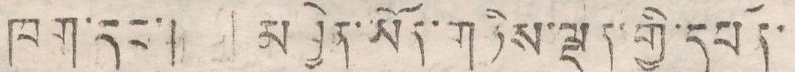ཁག་དང་། མཁྱེན་ཡོན་གཉིས་ལྡན་གྱི་དཔོན་
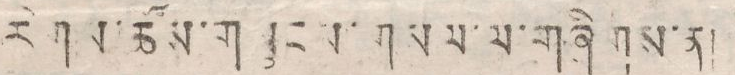རིགས་ཚོས་གསུངས་གསལ་ལ་གཞིགས་ན།
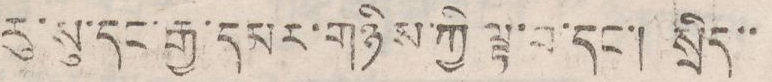རུ་སུ་དང་རྒྱ་དམར་གཉིས་ཀྱི་ལྟ་བ་དང་། སྲིད་་
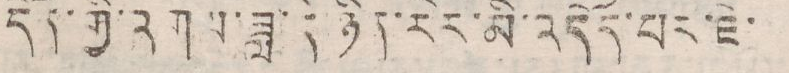དོན་གྱི་འགལ་ཟླ་དེ་ཉིན་རེར་མི་འདོད་པར་ཇེ་
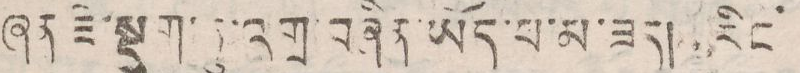ཞན་ཇི་སྡུག་ཏུ་འགྲ་བཞིན་ཡོད་པ་མ་ཟད། རིང་
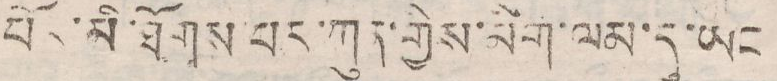ོཔྲ་མི་ཐོགས་པར་ཀུན་གྱིས་མིག་ལམ་དུ་ཡང
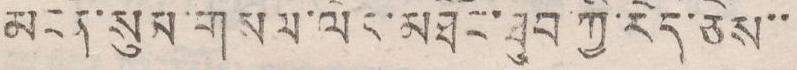མངོན་སུམ་གསལ་ལར་མཐོང་ཐུབ་ཀྱི་རེད་ཅེས་་
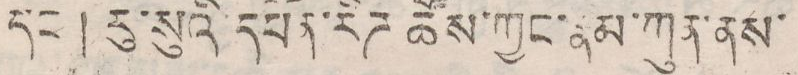དང་། རུ་སུའི་དཔོན་རིཌ་ཚོས་ཀྱང་རྣམ་ཀུན་ནས་
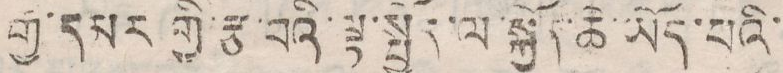རྒྱ་དམར་གྱི་རྩ་བའི་ལྟ་སྤྱོད་ལ་སྐྱོད་ཆེ་ཡོད་པའི་
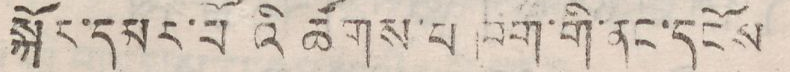སྐོར་དམར་པོའི་ཚོགས་པ་ཁག་གི་ནང་དནོས
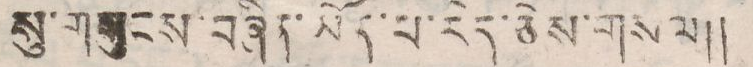སུ་གགུངས་བཞིན་ཡོད་པ་རེད་ཅེས་གསལ༎
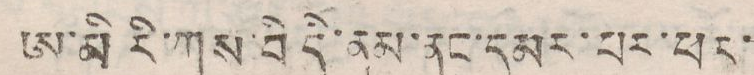ཨ་མི་རི་ཀས་བི དི་ནམ་ནང་དམར་པར་ཕར་
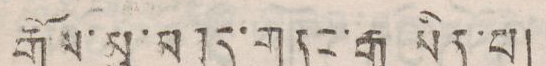རྒོལ་མུ་མཐུད་གནང་རྒྱུ མིན་པ།
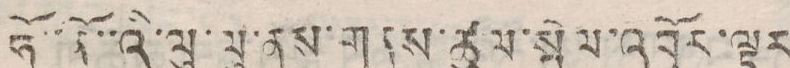ཧོ་ནོ་འི་ལུ་ལུ་ནས་གནས་ཚུལ་སྤེལ་འབྱོར་ལྟར
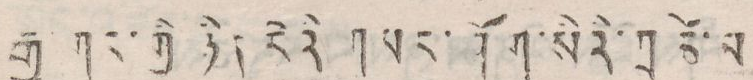རྒྱ གར་གྱི ཉིན རེའི གསར་ཤོག་སིའི་གྲ ཚེ་མ་
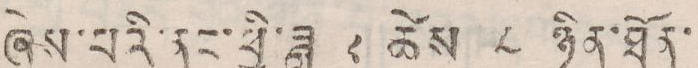ཞེས་པའི་ནང་ཕྱི་ཟླ་ ༢ ཚེས་ ༨ ཉིན་ཐོན་
